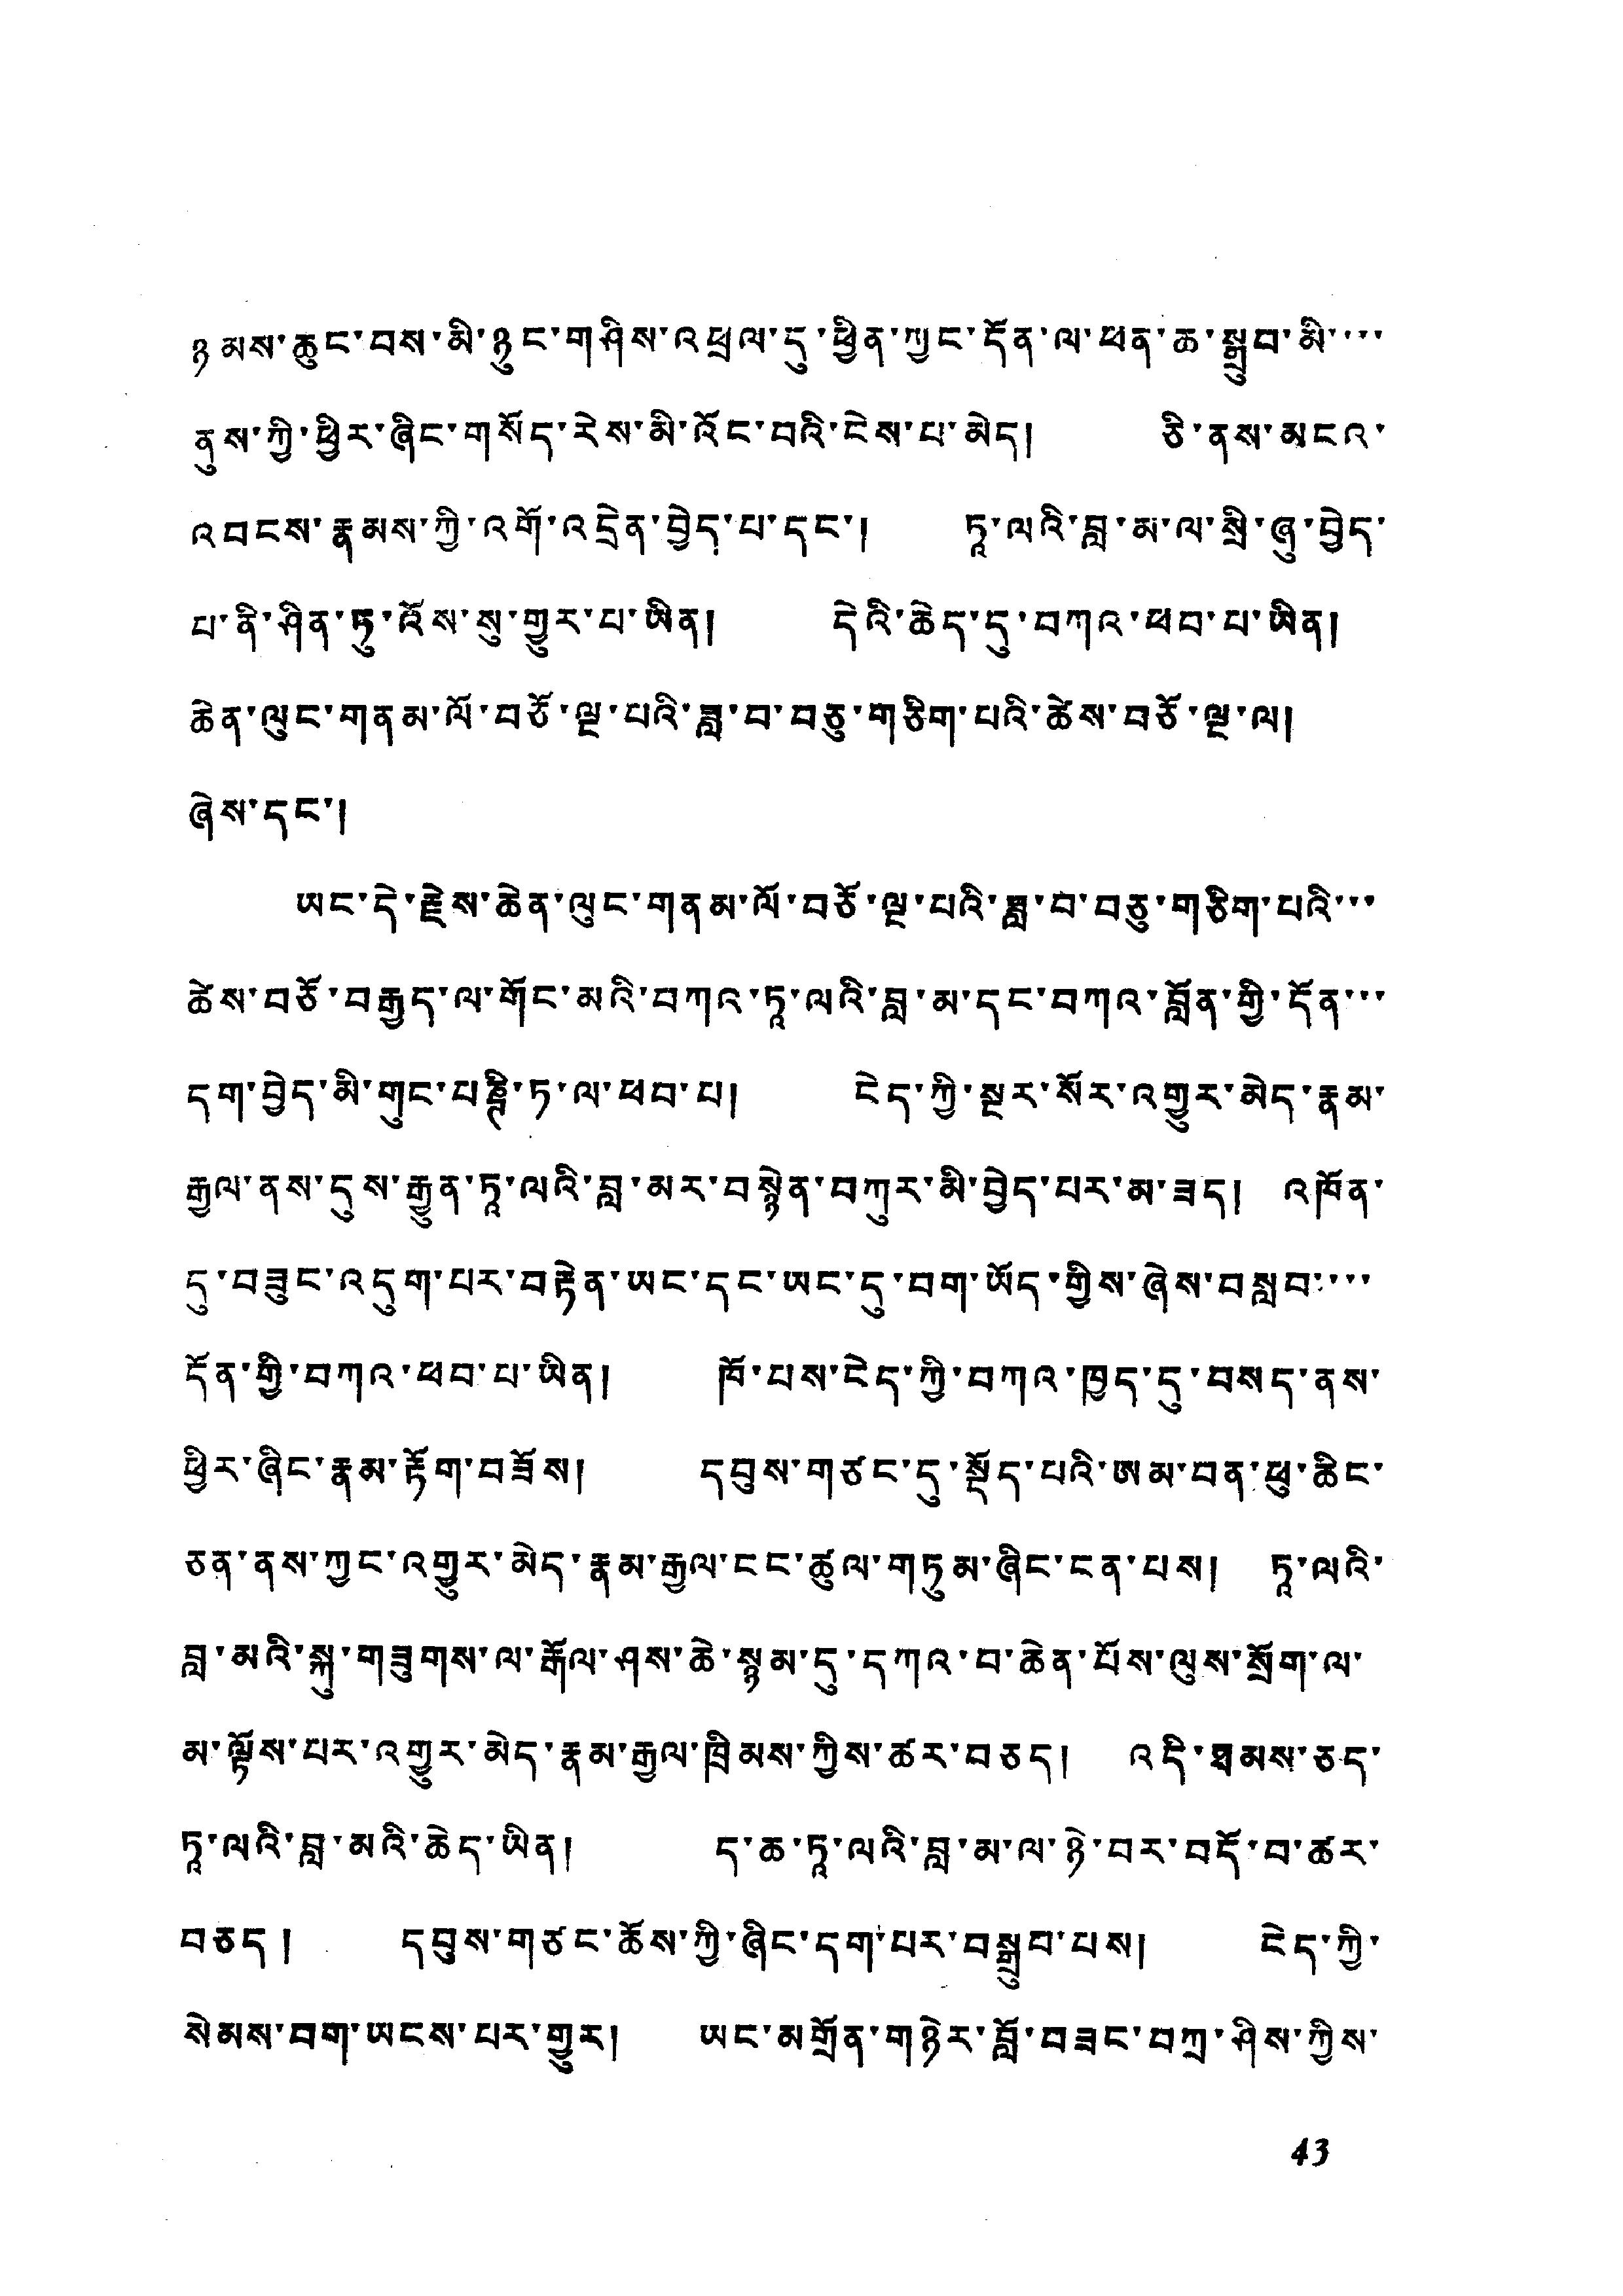ཉམས་ཆུང་བས་མི་ཉུང་གཤིས་འཕྲལ་དུ་ཕྱིན་ཀྱང་དོན་ལ་ཕན་ཆ་སྒྲུབ་མི་་་་
ནུས་ཀྱི་ཕྱིར་ཞིང་གསོད་རེས་མི་འོང་བའི་ངེས་པ་མེད། ཅི་ནས་མངའ་
འབངས་རྣམས་ཀྱི་འགོ་འདྲེན་བྱེད་པ་དང་། ཏཱ་ལའི་བླ་མ་ལ་སྲི་ཞུ་བྱེད་
པ་ནི་ཤིན་ཏུ་འོས་སུ་གྱུར་པ་ཡིན། དེའི་ཆེད་དུ་བཀའ་ཕབ་པ་ཡིན།
ཆེན་ལུང་གནམ་ལོ་བཅོ་ལྔ་པའི་ཟླ་བ་བཅུ་གཅིག་པའི་ཚེས་བཅོ་ལྔ་ལ།
ཞེས་དང་།
ཡང་དེ་རྗེས་ཆེན་ལུང་གནམ་ལོ་བཅོ་ལྔ་པའི་ཟླ་བ་བཅུ་གཅིག་པའི་
ཚེས་བཅོ་བརྒྱད་ལ་གོང་མའི་བཀའ་ཏཱ་ལའི་བླ་མ་དང་བཀའ་བློན་གྱི་དོན་
དག་བྱེད་མི་གུང་པཎྚི་ཏ་ལ་ཕབ་པ། ངེད་ཀྱི་སྔ་སོར་འགྱུར་མེད་རྣམ་
རྒྱལ་ནས་དུས་རྒྱུན་ཏའ་ལའི་བླ་མར་བསྙེན་བཀུར་མི་བྱེད་པར་མ་ཟད། འཁོན་
དུ་བཟུང་འདུག་པར་བརྟེན་ཡང་དང་ཡང་དུ་བག་ཡོད་གྱིས་ཞེས་བསླབ་་་་
དོན་གྱི་བཀའ་ཕབ་པ་ཡིན། ཁོ་པས་ངེད་ཀྱི་བཀའ་ཁྱད་དུ་བསད་ནས་
ཕྱིར་ཞིང་རྣམ་རྟོག་བཟོས། དབུས་གཙང་དུ་སྡོད་པའི་ཨམ་བན་ཕུ་ཆིང་
ཅན་ནས་ཀྱང་འགྱུར་མེད་རྣམ་རྒྱལ་ངང་ཚུལ་གཏུམ་ཞིང་ངན་པས། ཏཱ་ལའི་
བླ་མའི་སྐུ་གཟུགས་ལ་རྒོལ་ཤས་ཆེ་སྙམ་དུ་དཀའ་བ་ཆེན་པོས་ལུས་སྲོག་ལ་
མ་ལྟོས་པར་འགྱུར་མེད་རྣམ་རྒྱལ་ཁྲིམས་ཀྱིས་ཚར་བཅད། འདི་ཐམས་ཅད་
ཏཱ་ལའི་བླ་མའི་ཆེད་ཡིན། ད་ཆ་ཏཱ་ལའི་བླ་མ་ལ་ཉེ་བར་བདོ་བ་ཚར་
བཅད། དབུས་གཙང་ཆོས་ཀྱི་ཞིང་དག་པར་བསྒྲུབ་པས། ངེད་ཀྱི་
སེམས་བག་ཡངས་པར་གྱུར། ཡང་མགྲོན་གཉེར་བློ་བཟང་བཀྲ་ཤིས་ཀྱིས་
43
